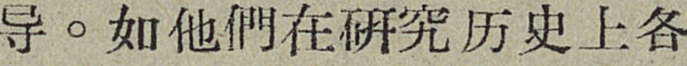导。如他們在研究历史上各
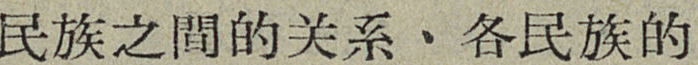民族之間的关系、各民族的
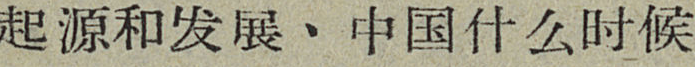起源和发展、中国什么时候
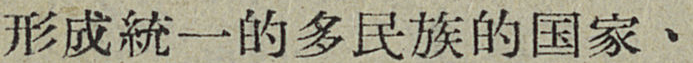形成統一的多民族的国家、
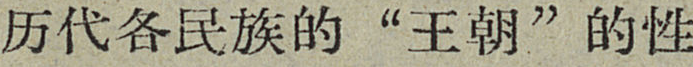历代各民族的“王朝”的性
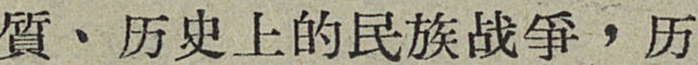質、历史上的民族战爭，历
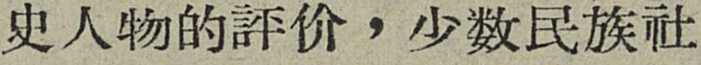史人物的評价，少数民族社
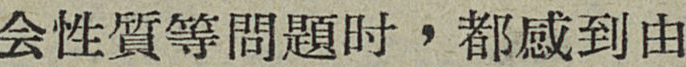会性質等問題时，都感到由
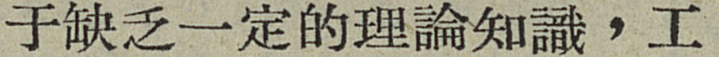于缺乏一定的理論知識，工
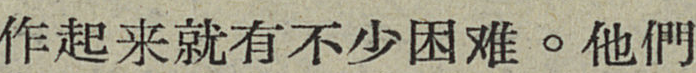作起来就有不少困难。他們
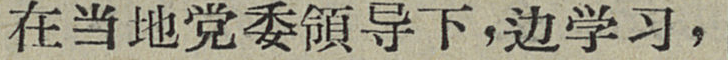在当地党委領导下，边学习，
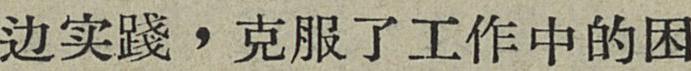边实踐，克服了工作中的困
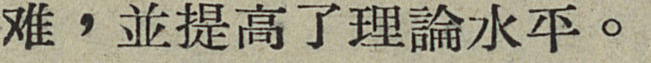难，並提高了理論水平。
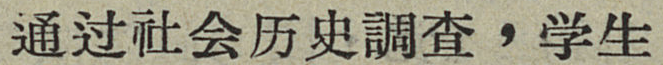通过社会历史調查，学生
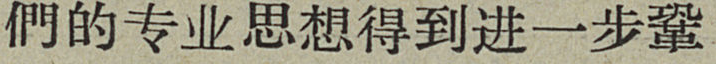們的专业思想得到进一步鞏
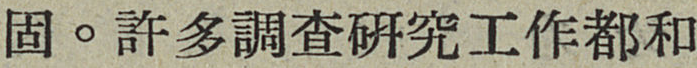固。許多調查研究工作都和
